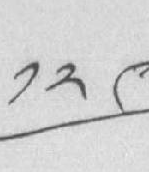༡༢༩
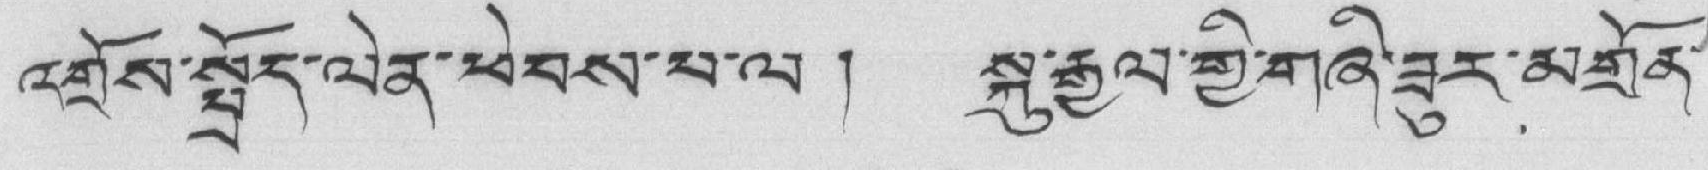འགྲོས་སྤྲོད་ལེན་ཕེབས་པ་ལ ། སྐུ་རྒྱལ་གྱི་གཞི་ཟུར་མགྲོན་
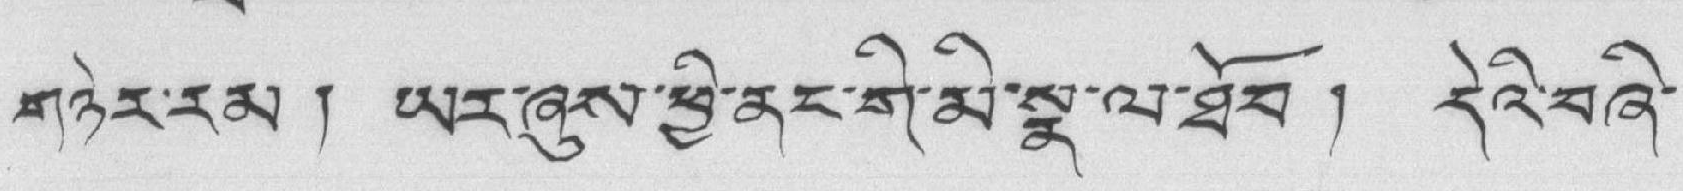གཉེར་རམ ། ཡར་ཞུས་ཕྱི་ནང་གི་མི་སྣ་ལ་ཐོབ ། དེའི་བཞི་
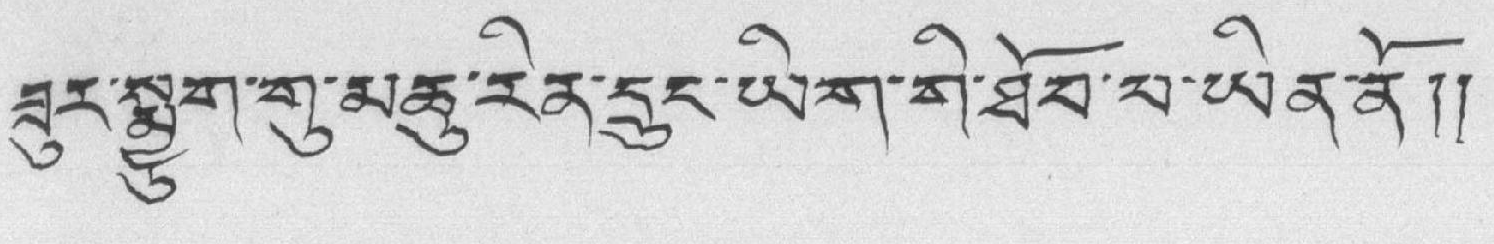ཟུར་སྨྱུག་གུ་མཆུ་རིན་དྲུང་ཡིག་གི་ཐོབ་པ་ཡིན་ནོ།།
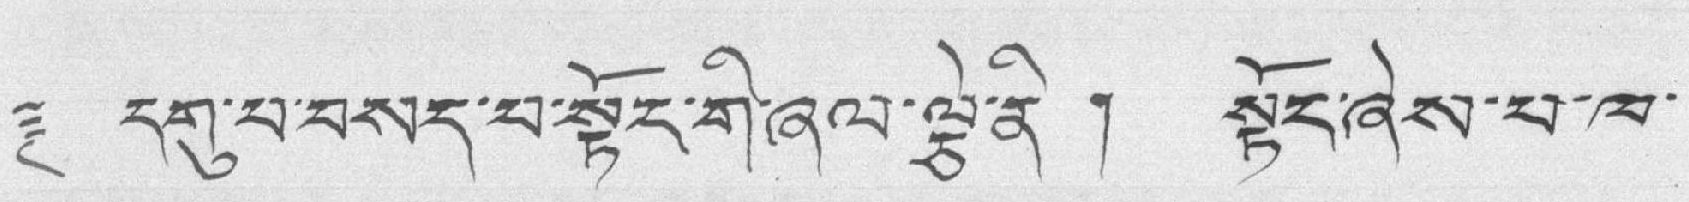༈ དགུ་པ་བསད་པ་སྟོང་གི་ཞལ་ལྕེ་ནི ། སྟོང་ཞེས་པ་ཁ་
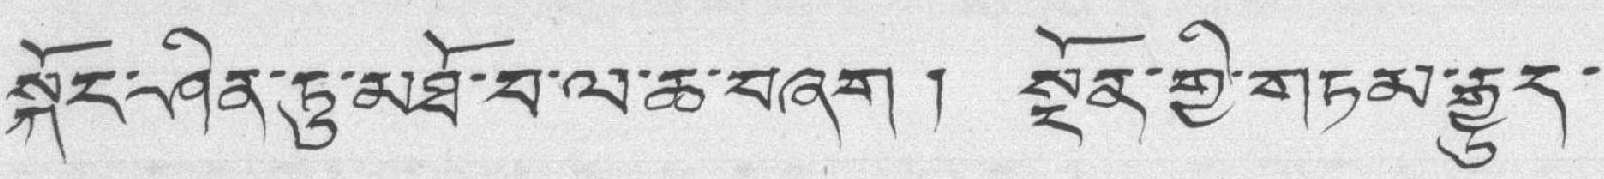སྐོང་ཤིན་ཏུ་མཐོ་བ་ལ་ཆ་བཞག ། སྔོན་གྱི་གཏམ་རྒྱུད་
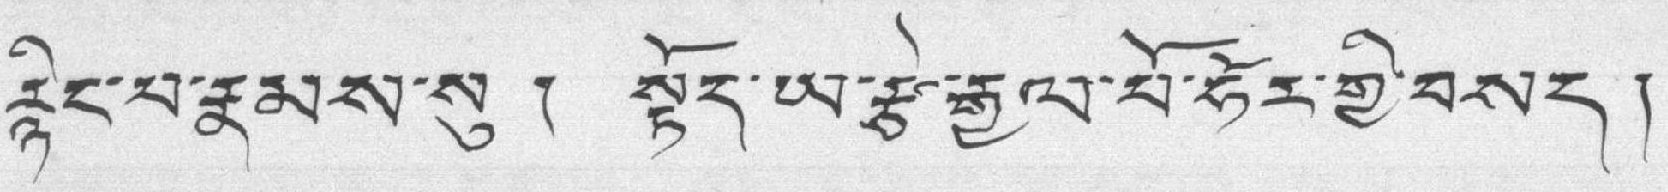རྙིང་པ་རྣམས་སུ ། སྟོད་ཡ་རྩ་རྒྱལ་པོ་ཧོར་གྱི་བསད །
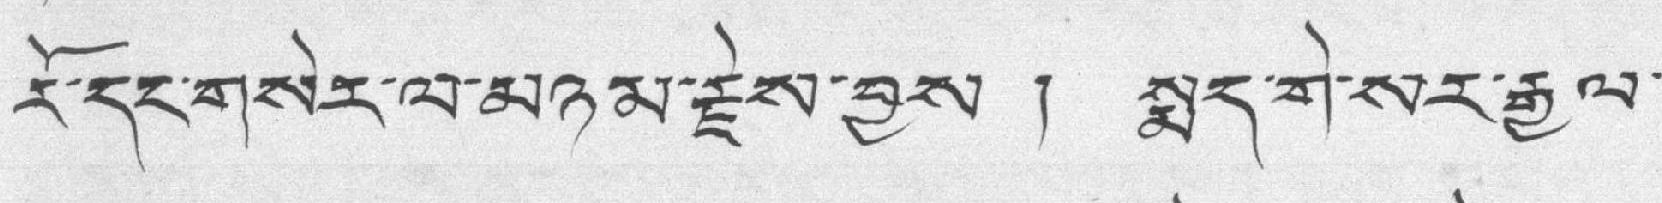རོ་དང་གསེར་ལ་མཉམ་རྗེས་བྱས ། སྨད་གེ་སར་རྒྱལ་
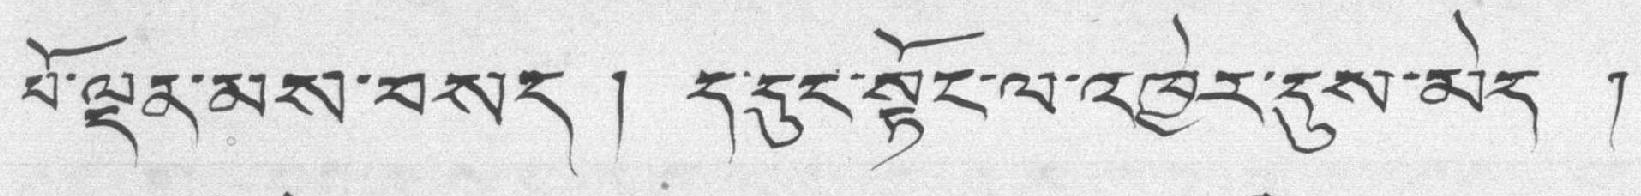པོ་ལྡན་མས་བསད ། ད་དུང་སྟོང་ལ་འཁྱེར་དུས་མེད །
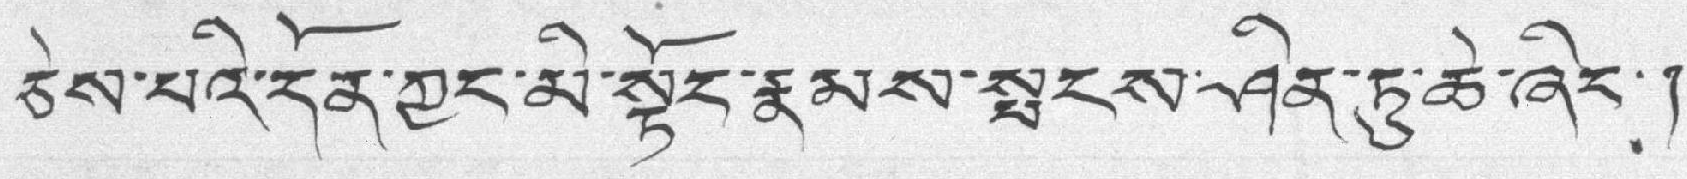ཅེས་པའི་དོན་ཀྱང་མི་སྟོང་རྣམས་སྤངས་ཤིན་ཏུ་ཆེ་ཞིང་།
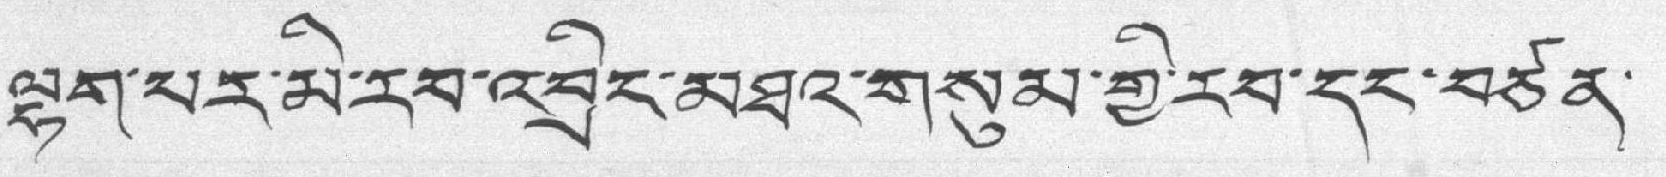ལྷག་པར་མི་རབ་འབྲིང་མཐའ་གསུམ་གྱི་རབ་དང་བཙན་
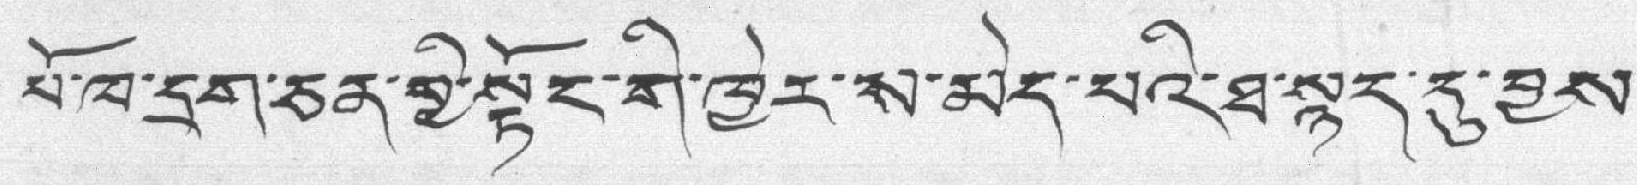པོ་ཁ་དྲག་ཅན་གྱི་སྟོང་གི་ཁྱེར་ས་མེད་པའི་ཐ་སྙད་དུ་བྱས་
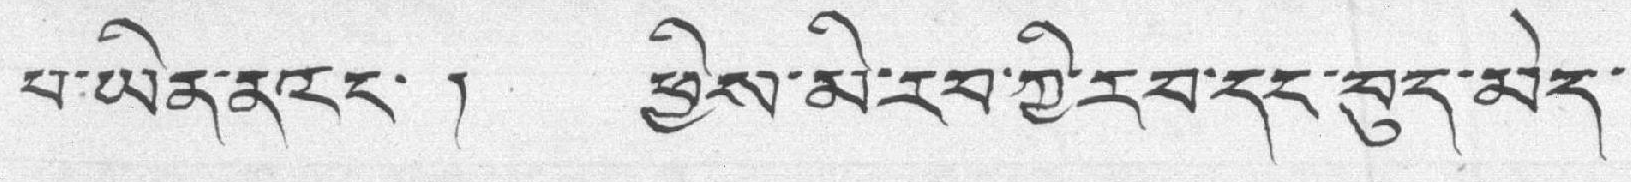པ་ཡིན་ནའང་ ། ཕྱིས་མི་རབ་ཀྱི་རབ་དང་བུད་མེད་
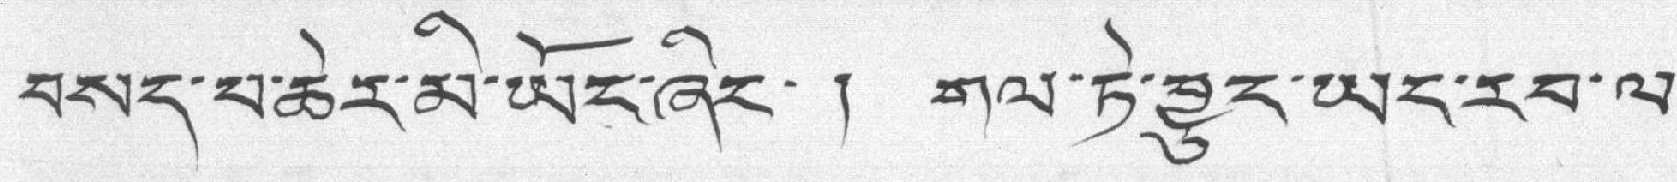བསད་པ་ཆེར་མེ་ཡོང་ཞིང་ ། གལ་ཏེ་བྱུང་ཡང་རབ་ལ་
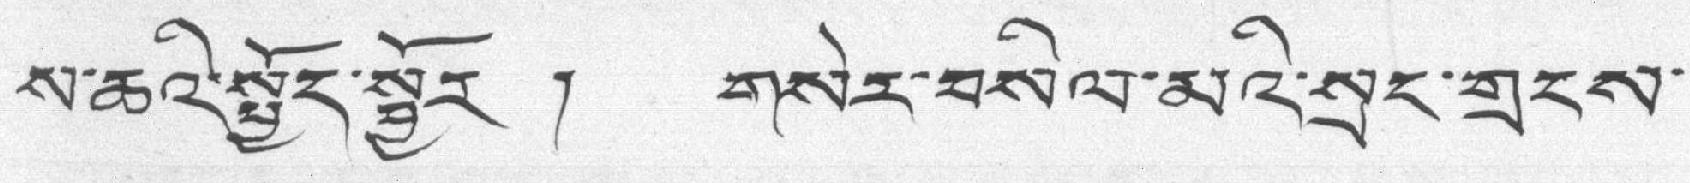ས་ཆའི་སྤྱོད་སྦྱོར ། གསེར་བསིལ་མའི་སྲང་གྲངས་
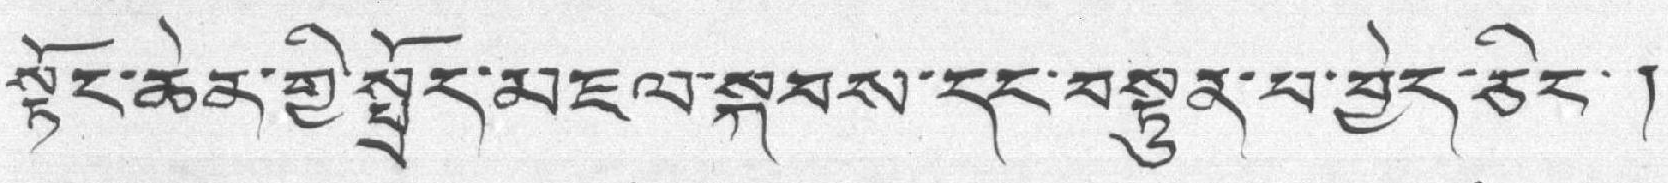སྟོང་ཆེན་གྱི་སྤྲོད་མཇལ་སྐབས་དང་བསྟུན་པ་བྱེད་ཅིང་ །
